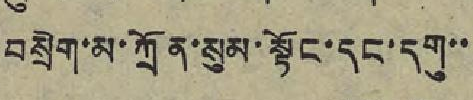བསྲེག་མ་ཀྲོན་སུམ་སྟོང་དང་དགུ་་
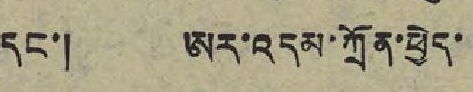དང་། ཨར་འདམ་ཀྲོན་ཕྱེད་
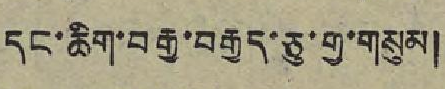དང་ཆིག་བརྒྱ་བརྒྱད་ཅུ་གྱ་གསུམ
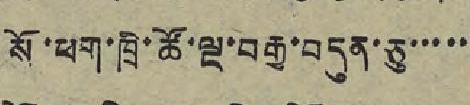སོ་ཕག་ཁྲི་ཚོ་ལྔ་བརྒྱ་བདུན་ཅུ་་་་་
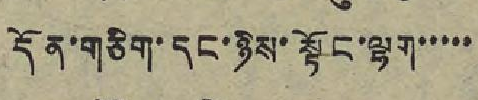དོན་གཅིག་དང་ཉིས་སྟོང་ལྷག་་་་་
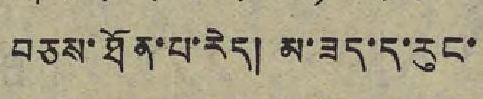བཅས་ཐོན་པ་རེད། མ་ཟད་ད་རུང་
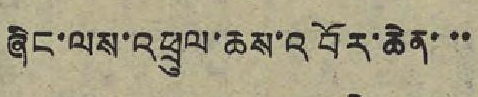ཞིང་ལས་འཕྲུལ་ཆས་འབོར་ཆེན་་་
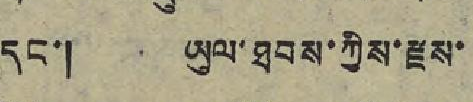དང་། ཡུལ་ཐབས་ཀྱིས་རྫས་
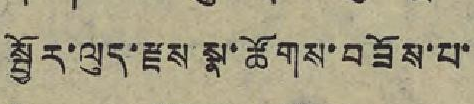སྦྱོར་ལུད་རྫས་སྣ་ཚོགས་བཟོས་པ
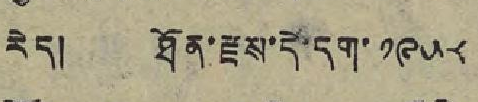རེད། ཐོན་རྫས་དེ་དག་ ༡༩༥༨
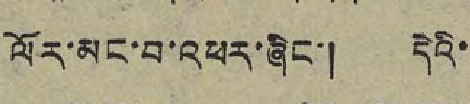ལོར་མང་བ་འཕར་ཞིང་། དེའི
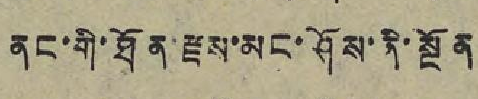ནང་གི་ཐོན་རྫས་མང་ཤོས་ནི་སྔོན
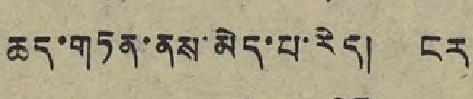ཆད་གཏན་ནས་མེད་པ་རེད། ངར
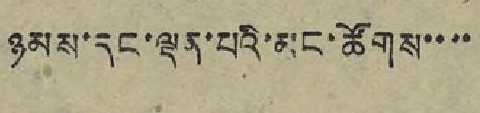ཉམས་དང་ལྡན་པའི་མང་ཚོགས་་་་
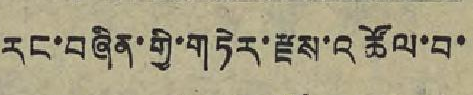རང་བཞིན་གྱི་གཏེར་རྫས་འཚོལ་བ་
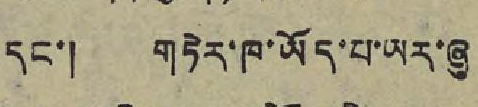དང་། གཏེར་ཁ་ཡོད་པ་ཡར་ཞུ
